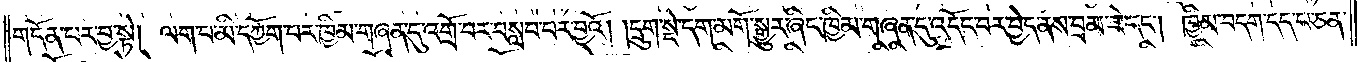གདོན་པར་བྱ་སྟེ། ལག་པ་མི་དཀྱོག་པར་ཁྱིམ་གཞན་དུ་འགྲོ་བར་བསླབ་པར་བྱའོ། །དྲུག་སྡེ་དག་མགོ་སྒྱུར་ཞིང་ཁྱིམ་གཞན་དུ་འདོང་བར་བྱེད་ནས་བྲམ་ཟེ་དང༌། ཁྱིམ་བདག་དད་པ་ཅན་
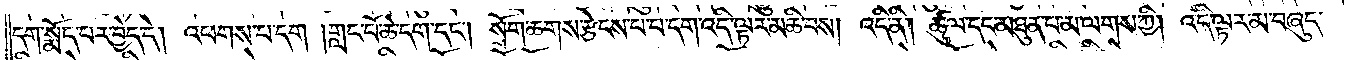དག་སྨོད་པར་བྱེད་དེ། འཕགས་པ་དག །གླང་པོ་ཆེ་དག་དང༌། སྲོག་ཆགས་རྩེངས་པ་དག་འདི་ལྟར་མཆི་བས། འདི་ནི། ཚུལ་དང་མཐུན་པ་མ་ལགས་ཀྱི། འདི་ལྟར་མ་བཞུད་
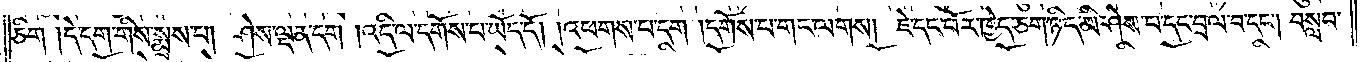ཅིག །དེ་དག་གིས་སྨྲས་པ། ཤེས་ལྡན་དག །འདི་ལ་དགོས་པ་ཡོད་དོ། །འཕགས་པ་དག །དགོས་པ་གང་ལགས། དེ་དང་པོར་ཁྱེད་ཅག་ཉིད་མི་ཤེས་པ་དང་བྲལ་བ་དང༌། བསླབ་
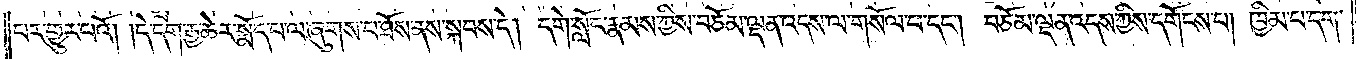པར་གྱུར་པའོ། །དེ་དག་རྒྱ་ཆེར་སྨོད་པ་ལ་ཞུགས་པ་ཐོས་ནས་སྐབས་དེ། དགེ་སློང་རྣམས་ཀྱིས་བཅོམ་ལྡན་འདས་ལ་གསོལ་བ་དང༌། བཅོམ་ལྡན་འདས་ཀྱིས་དགོངས་པ། ཁྱིམ་པ་དག་
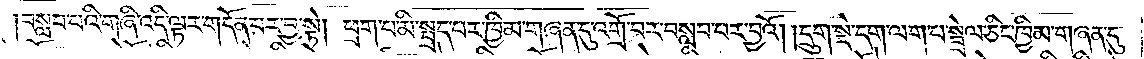བསླབ་པའི་གཞི་འདི་ལྟར་གདོན་པར་བྱ་སྟེ། ཕྲག་པ་མི་སྤྲད་པར་ཁྱིམ་གཞན་དུ་འགྲོ་བར་བསླབ་པར་བྱའོ། །དྲུག་སྡེ་དག་ལག་པ་སྦྲེལ་ཅིང་ཁྱིམ་གཞན་དུ་
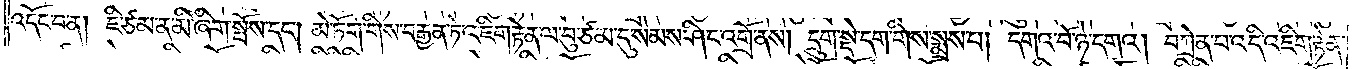འདོང་བ་ན། ཇི་ཙམ་ན་མི་ཞིག་སྤོས་དང༌། མེ་ཏོག་གིས་བརྒྱན་ཏེ་འཇིག་རྟེན་ལ་བུ་ཙམ་དུ་སེམས་ཤིང་འགྲོ་ནས། དྲུག་སྡེ་དག་གིས་སྨྲས་པ། དགའ་བོ་ཉེ་དགའ། བཀྲེན་པ་འདི་འཇིག་རྟེན་
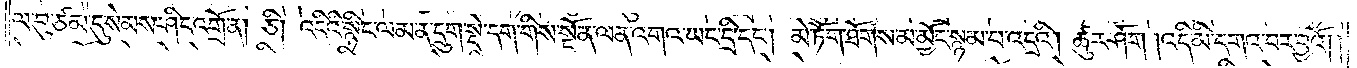ལ་བུ་ཙམ་དུ་སེམས་ཤིང་འགྲོ་ན། ཅི། འདིའི་སྙིང་ལམ་ན་དྲུག་སྡེ་དག་གིས་སྔོན་ལན་འགའ་ཡང་དྲི་དང༌། མེ་ཏོག་ཐོགས་མ་མྱོང་སྙམ་པ་འདྲའི། ཚུར་ཤོག །འདི་མི་དགའ་བར་བྱའོ། །
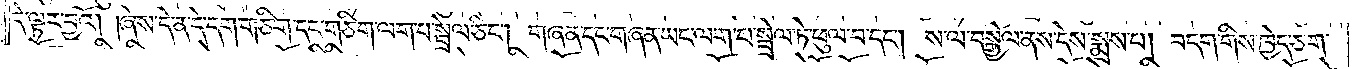དེ་ལྟར་བྱའོ། །ཞེས་དེ་ན་དེ་དག་གཅིག་དང་གཅིག་ལག་པ་སྦྲེལ་ཅིང༌། གཞན་དང་གཞན་ཡང་ལག་པ་སྦྲེལ་ཏེ་ཕུལ་བ་དང༌། ས་ལ་བསྒྱེལ་ནས་དེས་སྨྲས་པ། བདག་གིས་ཁྱེད་ཅག་
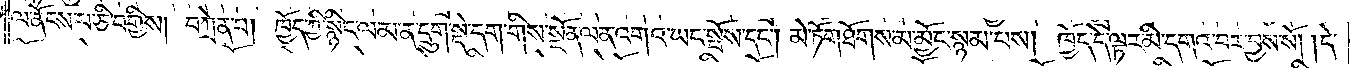ལ་ནོངས་པ་ཅི་བགྱིས། བཀྲེན་པ། ཁྱོད་ཀྱི་སྙིང་ལམ་ན་དྲུག་སྡེ་དག་གིས་སྔོན་ལན་འགའ་ཡང་སྤོས་དང༌། མེ་ཏོག་ཐོགས་མ་མྱོང་སྙམ་པས། ཁྱོད་དེ་ལྟར་མི་དགའ་བར་བྱས་སོ། །དེ་
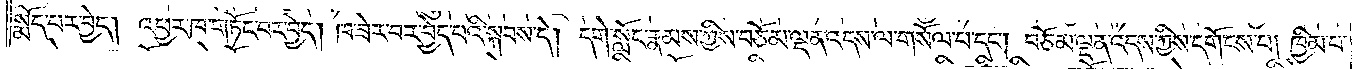སྨོད་པར་བྱེད། འཕྱར་ཁ་གཏོང་བར་བྱེད། ཁ་ཟེར་བར་བྱེད་པའི་སྐབས་དེ། དགེ་སློང་རྣམས་ཀྱིས་བཅོམ་ལྡན་འདས་ལ་གསོལ་བ་དང༌། བཅོམ་ལྡན་འདས་ཀྱིས་དགོངས་པ། ཁྱིམ་པ་
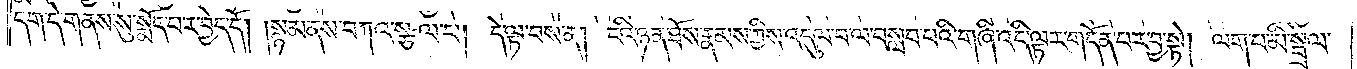དག་དེ་གནས་སུ་སྨོད་པར་བྱེད་དོ། །སྙམ་ནས་བཀའ་སྩལ་པ། དེ་ལྟ་བས་ན། ངའི་ཉན་ཐོས་རྣམས་ཀྱིས་འདུལ་བ་ལ་བསླབ་པའི་གཞི་འདི་ལྟར་གདོན་པར་བྱ་སྟེ། ལག་པ་མི་སྦྲེལ་
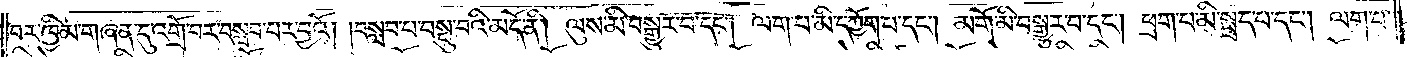བར་ཁྱིམ་གཞན་དུ་འགྲོ་བར་བསླབ་པར་བྱའོ། །བསླབ་པ་བསྡུ་བའི་མདོ་ནི། ལུས་མི་བསྒྱུར་བ་དང༌། ལག་པ་མི་དཀྱོག་པ་དང༌། མགོ་མི་བསྒྱུར་བ་དང༌། ཕྲག་པ་མི་སྤྲད་པ་དང༌། ལག་པ་
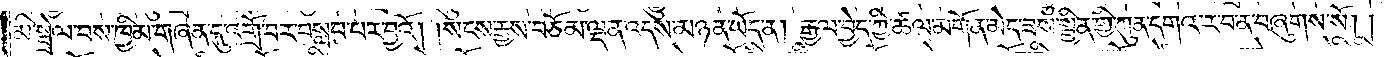མི་སྤྲེལ་བས་ཁྱིམ་གཞན་དུ་འགྲོ་བར་བསླབ་པར་བའོ། །སངས་རྒྱས་བཅོམ་ལྡན་འདས་མཉན་ཡོད་ན། རྒྱལ་བྱེད་ཀྱི་ཚལ་མགོན་མེད་ཟས་སྦྱིན་གྱི་ཀུན་དགའ་ར་བ་ན་བཞུགས་སོ། །
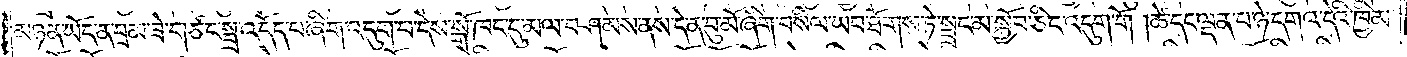མཉན་ཡོད་ན་བྲམ་ཟེ་གཙང་སྦྲ་འདོད་པ་ཞིག་འདུག་པ་དེས་སྒོ་ཁང་དུ་མལ་བཤམས་ནས་དེ་ན་བུ་མོ་ཞིག་བསིལ་ཡབ་ཐོགས་ཏེ་སྦྲང་མ་སྐྱོབ་ཅིང་འདུག་གོ །ཚེ་དང་ལྡན་པ་ཉེ་དགའ་དེའི་ཁྱིམ་
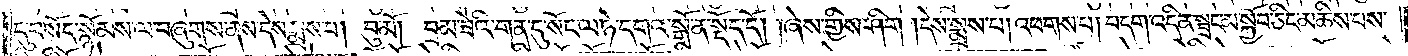དུ་བསོད་སྙོམས་ལ་བཞུགས་ནས་དེས་སྨྲས་པ། བུ་མོ། བྲམ་ཟེའི་གན་དུ་སོང་ལ་ཉེ་དགའ་སྒོ་ན་སྡོད་དོ། །ཞེས་གྱིས་ཤིག །དེས་སྨྲས་པ། འཕགས་པ། བདག་འདི་ན་སྦྲང་མ་སྐྱོབ་ཅིང་མཆིས་པས་
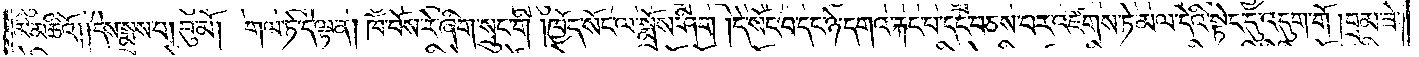མི་མཆིའོ། །དེས་སྨྲས་པ། བུ་མོ། གལ་ཏེ་དེ་ལྟ་ན། ཁོ་བོས་རེ་ཞིག་སྲུང་གི །ཁྱོད་སོང་ལ་སྨྲོས་ཤིག །དེ་སོང་བ་དང་ཉེ་དགའ་རྐང་པ་དང་བཅས་པར་འཛེགས་ཏེ་མལ་དེའི་སྟེང་དུ་འདུག་གོ། །བྲམ་ཟེ་
